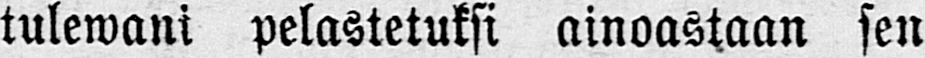tulewani pelastetuksi ainoastaan sen
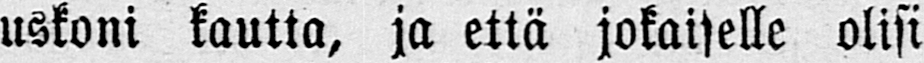uskoni kautta, ja että jokaiselle olisi
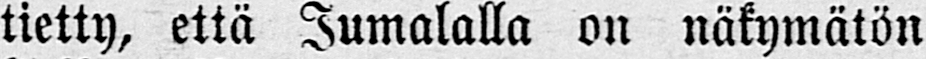tietty, että Jumalalla on näkymätön
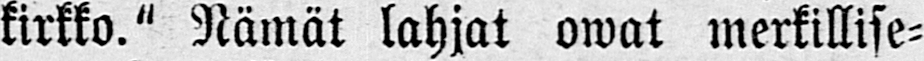kirkko." Nämät lahjat owat merkillise-
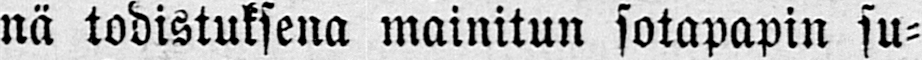nä todistuksena mainitun sotapapin su-
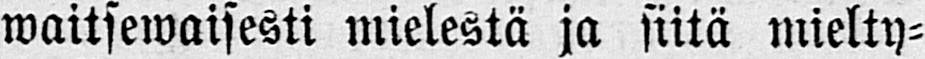waitsewaisesti mielestä ja siitä mielty-
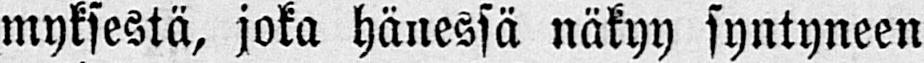myksestä, joka hänessä näkyy syntyneen
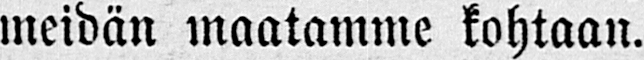meidän maatamme kohtaan.
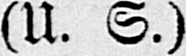(U. S.)
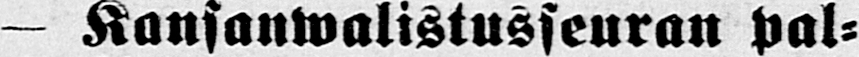— Kansanwalistusseuran pal-
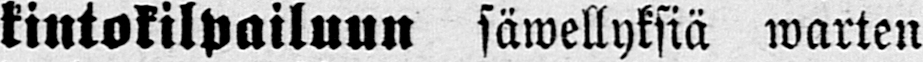kintokilpailuun säwellyksiä warten
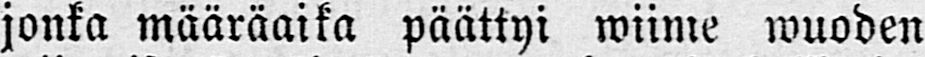jonka määräaika päättyi wiime wuoden
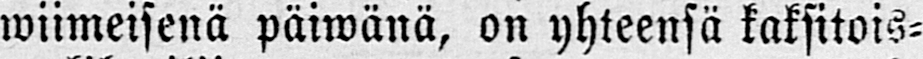wiimeisenä päiwänä, on yhteensä kaksitois-
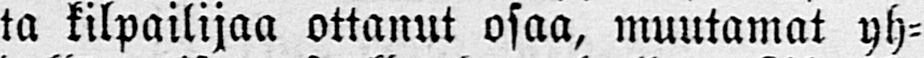ta kilpailijaa ottanut osaa, muutamat yh-
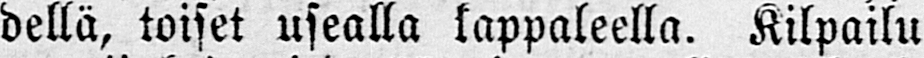dellä, toiset usealla kappaleella. Kilpailu
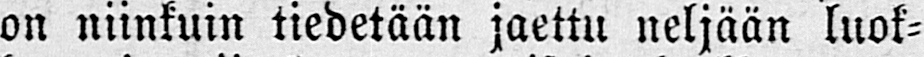on niinkuin tiedetään jaettu neljään luok-
